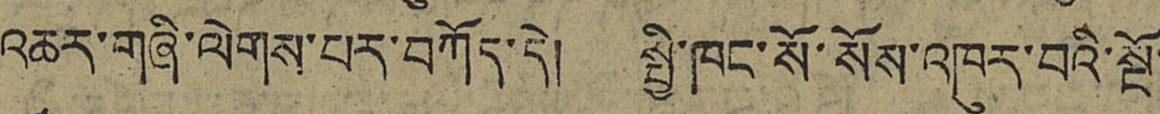འཆར་གཞི་ལེགས་པར་བཀོད་དེ། སྤྱི་ཁང་སོ་སོས་འཁུར་བའི་སྔོ་
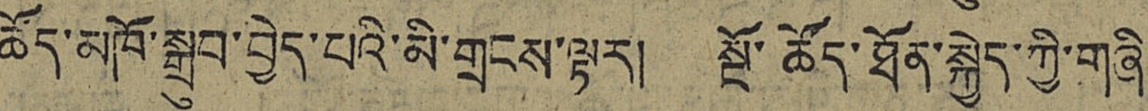ཆོད་མཁོ་སྒྲུབ་བྱེད་པའི་མི་གྲངས་ལྟར། སྔོ་ཚོད་ཐོན་སྐྱེད་ཀྱི་གཞི་
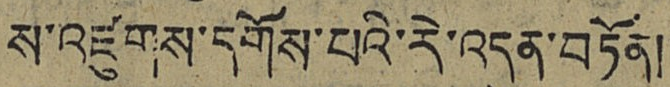ས་འཛུགས་དགོས་པའི་རེ་འདུན་བཏོན།
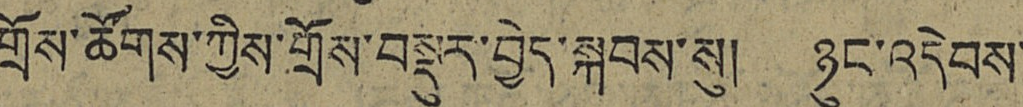གྲོས་ཚོགས་ཀྱིས་གྲོས་བསྡུར་བྱེད་སྐབས་སུ། ཉུང་འདེབས་
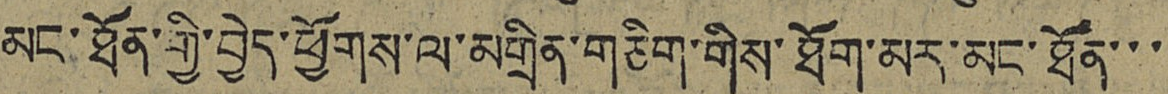མང་ཐོན་གྱི་བྱེད་ཕྱོགས་ལ་མགྲིན་གཅིག་གིས་ཐོག་མར་མང་ཐོན་་་
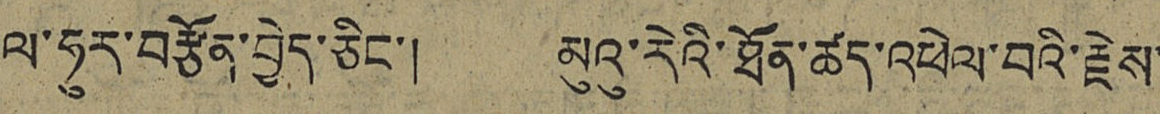ལ་ཧུར་བརྩོན་བྱེད་ཅིང་། མུའུ་རེའི་ཐོན་ཚད་འཕེལ་བའི་རྗེས་
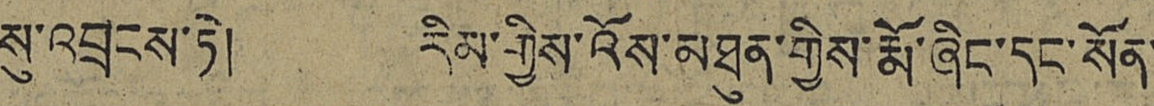སུ་འབྲངས་ཏེ། རིམ་གྱིས་འོས་མཏུན་གྱིས་རྨོ་ཞིང་དང་སོན་
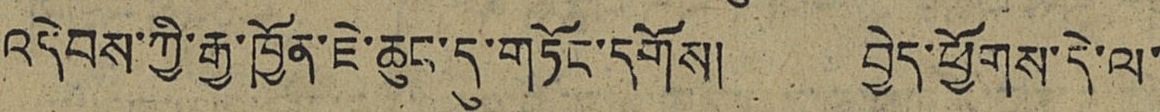འདེབས་ཀྱི་རྒྱ་ཁྱོན་ཇེ་ཆུང་དུ་གཏོང་དགོས། བྱེད་ཕྱོགས་དེ་ལ་
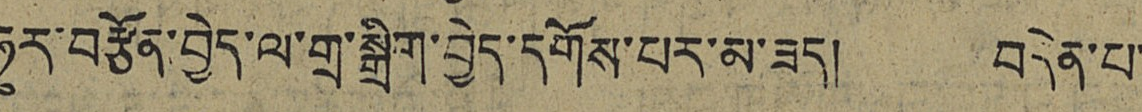ཧུར་བརྩོན་བྱེད་ལ་གྲ་སྒྲིག་བྱེད་དགོས་པར་མ་ཟད། བདེན་པ་
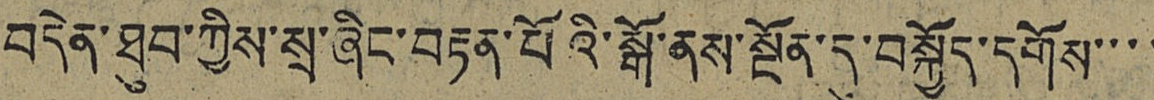བདེན་ཐུབ་ཀྱིས་སྲ་ཞིང་བརྟན་པོའི་སྒོ་ནས་སྔོན་དུ་བསྐྱོད་དགོས་་་་
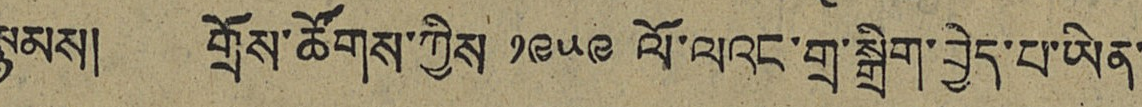སྙམས། གྲོས་ཚོགས་ཀྱིས ༡༩༥༩ ལོ་ལའང་གྲ་སྒྲིག་བྱེད་པ་ཡིན་
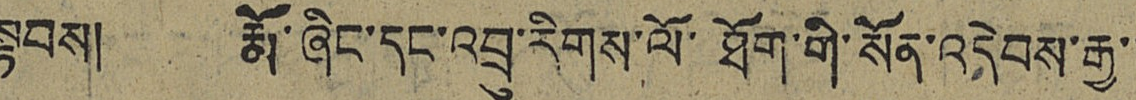སྟབས། རྨོ་ཞིང་དང་འབྲུ་རིགས་ལོ་ཐོག་གི་སོན་འདེབས་རྒྱ་་
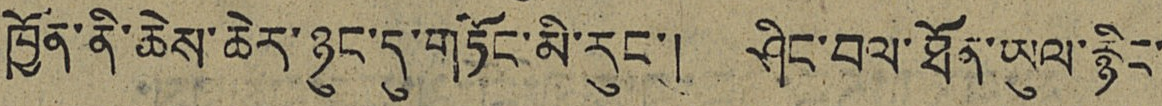ཁྱོན་ནི་ཆེས་ཆེར་ཉུང་དུ་གཏོང་མི་རུང་། ཤིང་བལ་ཐོན་ཡུལ་རྙིང་
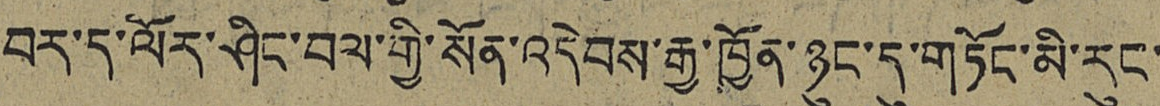བར་ད་ལོར་ཤིང་བལ་གྱི་སོན་འདེབས་རྒྱ་ཁྱོན་ཉུང་དུ་གཏོང་མི་རུང་
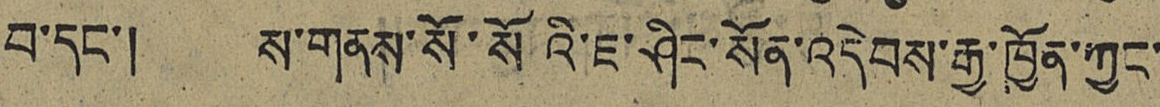བ་དང་། ས་གནས་སོ་སོའི་ཇ་ཤིང་སོན་འདེབས་རྒྱ་ཁྱོན་ཀྱང་
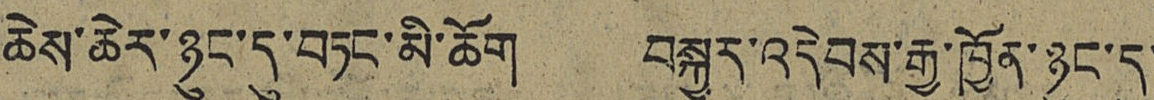ཆེས་ཆེར་ཉུང་དུ་བཏང་མི་ཆོག བསྐྱར་འདེབས་རྒྱ་ཁྱོན་ཉུང་དུ་
